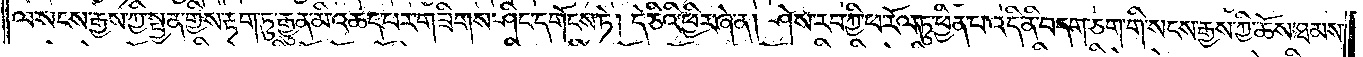ལ་སངས་རྒྱས་ཀྱི་སྤྱན་གྱིས་རྟག་ཏུ་རྒྱུན་མི་འཆད་པར་གཟིགས་ཤིང་དགོངས་ཏེ། དེ་ཅིའི་ཕྱིར་ཞེ་ན། ཤེས་རབ་ཀྱི་ཕ་རོལ་ཏུ་ཕྱིན་པ་འདི་ནི་བདག་ཅག་གི་སངས་རྒྱས་ཀྱི་ཆོས་ཐམས་
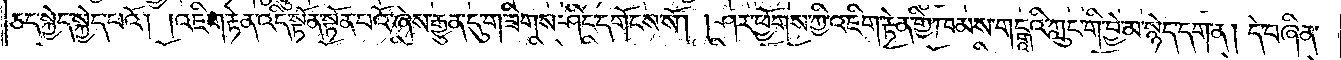ཅད་སྐྱེད་སྐྱེད་པའོ། །འཇིག་རྟེན་འདི་སྟོན་སྟོན་པའོ་ཞེས་རྒྱུན་དུ་གཟིགས་ཤིང་དགོངས་སོ། །ཤར་ཕྱོགས་ཀྱི་འཇིག་རྟེན་གྱི་ཁམས་གངྒཱའི་ཀླུང་གི་བྱེ་མ་སྙེད་དག་ན། དེ་བཞིན་
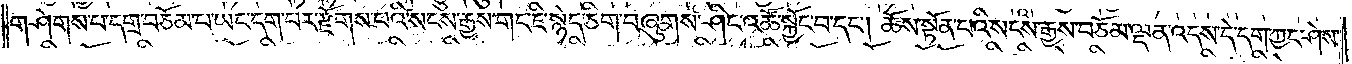གཤེགས་པ་དགྲ་བཅོམ་པ་ཡང་དག་པར་རྫོགས་པའི་སངས་རྒྱས་གང་ཇི་སྙེད་ཅིག་བཞུགས་ཤིང་འཚོ་སྐྱོང་བ་དང༌། ཆོས་སྟོན་པའི་སངས་རྒྱས་བཅོམ་ལྡན་འདས་དེ་དག་ཀྱང་ཤེས་
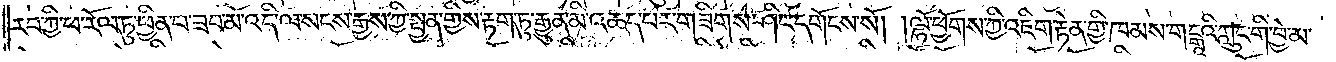རབ་ཀྱི་ཕ་རོལ་ཏུ་ཕྱིན་པ་ཟབ་མོ་འདི་ལ་སངས་རྒྱས་ཀྱི་སྤྱན་གྱིས་རྟག་ཏུ་རྒྱུན་མི་འཆད་པར་གཟིགས་ཤིང་དགོངས་སོ། །ལྷོ་ཕྱོགས་ཀྱི་འཇིག་རྟེན་གྱི་ཁམས་གངྒཱའི་རི་ཀླུང་གི་བྱེ་མ་
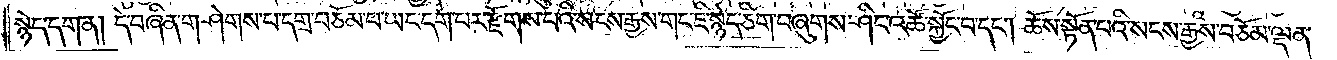སྙེད་དག་ན། དེ་བཞིན་གཤེགས་པ་དགྲ་བཅོམ་པ་ཡང་དག་པར་རྫོགས་པའི་སངས་རྒྱས་གང་ཇི་སྙེད་ཅིག་བཞུགས་ཤིང་འཚོ་སྐྱོང་བ་དང༌། ཆོས་སྟོན་པའི་སངས་རྒྱས་བཅོམ་ལྡན་
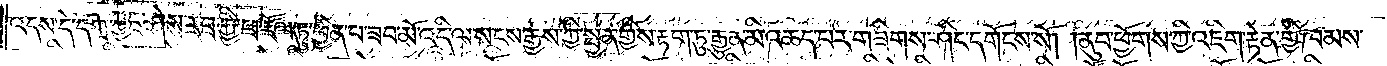འདས་དེ་དག་ཀྱང་ཤེས་རབ་ཀྱི་ཕ་རོལ་ཏུ་ཕྱིན་པ་ཟབ་མོ་འདི་ལ་སངས་རྒྱས་ཀྱི་སྤྱན་གྱིས་རྟག་ཏུ་རྒྱུན་མི་འཆད་པར་གཟིགས་ཤིང་དགོངས་སོ། །ནུབ་ཕྱོགས་ཀྱི་འཇིག་རྟེན་གྱི་ཁམས་
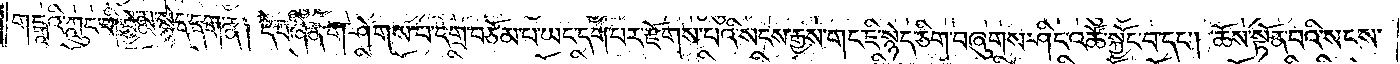གངྒཱའི་ཀླུང་གི་བྱེ་མ་སྙེད་དག་ན། དེ་བཞིན་གཤེགས་པ་དགྲ་བཅོམ་པ་ཡང་དག་པར་རྫོགས་པའི་སངས་རྒྱས་གང་ཇི་སྙེད་ཅིག་བཞུགས་ཤིང་འཚོ་སྐྱོང་བ་དང༌། ཆོས་སྟོན་པའི་སངས་
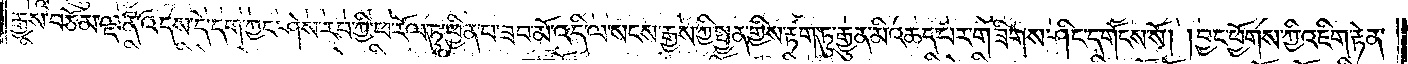རྒྱས་བཅོམ་ལྡན་འདས་དེ་དག་ཀྱང་ཤེས་རབ་ཀྱི་ཕ་རོལ་ཏུ་ཕྱིན་པ་ཟབ་མོ་འདི་ལ་སངས་རྒྱས་ཀྱི་སྤྱན་གྱིས་རྟག་ཏུ་རྒྱུན་མི་འཆད་པར་གཟིགས་ཤིང་དགོངས་སོ། །བྱང་ཕྱོགས་ཀྱི་འཇིག་རྟེན་
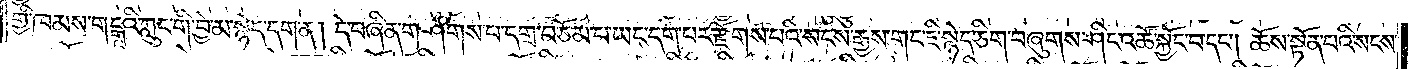གྱི་ཁམས་གངྒཱའི་ཀླུང་གི་བྱེ་མ་སྙེད་དག་ན། དེ་བཞིན་གཤེགས་པ་དགྲ་བཅོམ་པ་ཡང་དག་པར་རྫོགས་པའི་སངས་རྒྱས་གང་ཇི་སྙེད་ཅིག་བཞུགས་ཤིང་འཚོ་སྐྱོང་བ་དང༌། ཆོས་སྟོན་པའི་སངས་
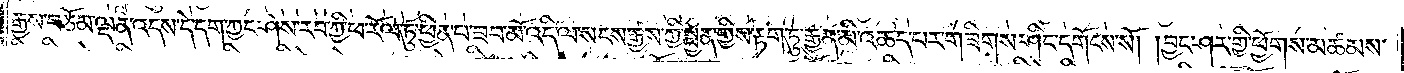རྒྱས་བཅོམ་ལྡན་འདས་དེ་དག་ཀྱང་ཤེས་རབ་ཀྱི་ཕ་རོལ་ཏུ་བྱིན་པ་ཟབ་མོ་འདི་ལ་སངས་རྒྱས་ཀྱི་སྤྱན་གྱིས་རྟག་ཏུ་རྒྱུན་མི་འཆད་པར་གཟིགས་ཤིང་དགོངས་སོ། །བྱང་ཤར་གྱི་ཕྱོགས་མཚམས་
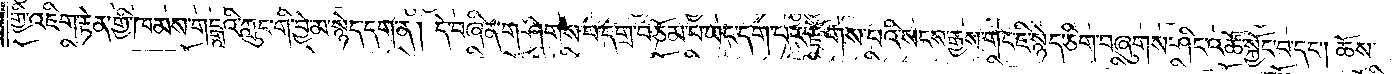ཀྱི་འཇིག་རྟེན་གྱི་ཁམས་གངྒཱའི་ཀླུང་གི་བྱེ་མ་སྙེད་དག་ན། དེ་བཞིན་གཤེགས་པ་དགྲ་བཅོམ་པ་ཡང་དག་པར་རྫོགས་པའི་སངས་རྒྱས་གང་ཇི་སྙེད་ཅིག་བཞུགས་ཤིང་འཚོ་སྐྱོང་བ་དང༌། ཆོས་
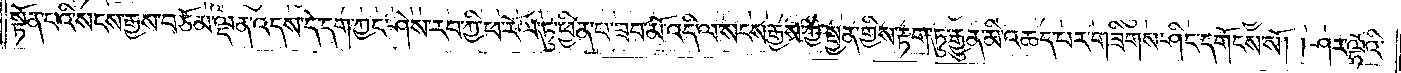སྟོན་པའི་སངས་རྒྱས་བཅོམ་ལྡན་འདས་དེ་དག་ཀྱང་ཤེས་རབ་ཀྱི་ཕ་རོལ་ཏུ་ཕྱིན་པ་ཟབ་མོ་འདི་ལ་སངས་རྒྱས་ཀྱི་སྤྱན་གྱིས་རྟག་ཏུ་རྒྱུན་མི་འཆད་པར་གཟིགས་ཤིང་དགོངས་སོ། །ཤར་ལྷོའི་
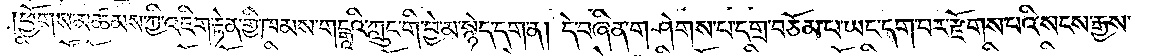ཕྱོགས་མཚམས་ཀྱི་འཇིག་རྟེན་གྱི་ཁམས་གངྒཱའི་ཀླུང་གི་བྱེ་མ་སྙེད་དག་ན། དེ་བཞིན་གཤེགས་པ་དགྲ་བཅོམ་པ་ཡང་དག་པར་རྫོགས་པའི་སངས་རྒྱས་
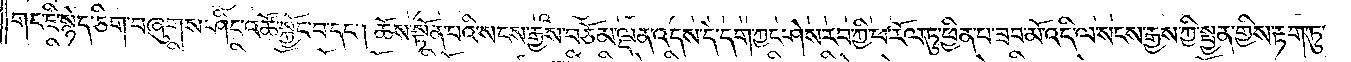གང་ཇི་སྙེད་ཅིག་བཞུགས་ཤིང་འཚོ་སྐྱོང་བ་དང༌། ཆོས་སྟོན་པའི་སངས་རྒྱས་བཅོམ་ལྡན་འདས་དེ་དག་ཀྱང་ཤེས་རབ་ཀྱི་ཕ་རོལ་ཏུ་ཕྱིན་པ་ཟབ་མོ་འདི་ལ་སངས་རྒྱས་ཀྱི་སྤྱན་གྱིས་རྟག་ཏུ་
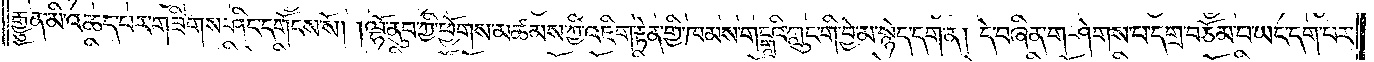རྒྱུན་མི་འཆད་པར་གཟིགས་ཤིང་དགོངས་སོ། །ལྷོ་ནུབ་ཀྱི་ཕྱོགས་མཚམས་ཀྱི་འཇིག་རྟེན་གྱི་ཁམས་གངྒཱའི་ཀླུང་གི་བྱེ་མ་སྙེད་དག་ན། དེ་བཞིན་གཤེགས་པ་དགྲ་བཅོམ་པ་ཡང་དག་པར་
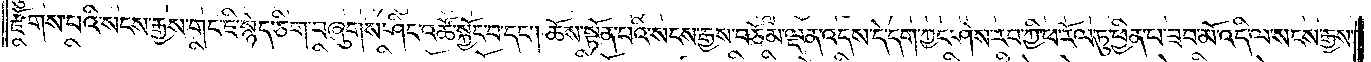རྫོགས་པའི་སངས་རྒྱས་གང་ཇི་སྙེད་ཅིག་བཞུགས་ཤིང་འཚོ་སྐྱོང་བ་དང༌། ཆོས་སྟོན་པའི་སངས་རྒྱས་བཅོམ་ལྡན་འདས་དེ་དག་ཀྱང་ཤེས་རབ་ཀྱི་ཕ་རོལ་ཏུ་ཕྱིན་བཟང་མོ་འདི་ལ་སངས་རྒྱས་
